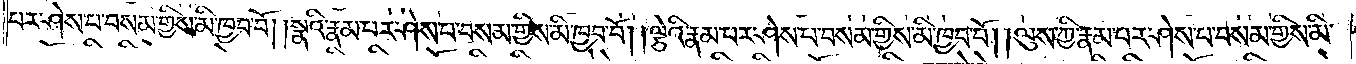པར་ཤེས་པ་བསམ་གྱིས་མི་ཁྱབ་བོ། སྣའི་རྣམ་པར་ཤེས་པ་བསམ་གྱིས་མི་ཁྱབ་བོ། །ལྕེའི་རྣམ་པར་ཤེས་པ་བསམ་གྱིས་མི་ཁྱབ་བོ། །ལུས་ཀྱི་རྣམ་པར་ཤེས་པ་བསམ་གྱིས་མི་
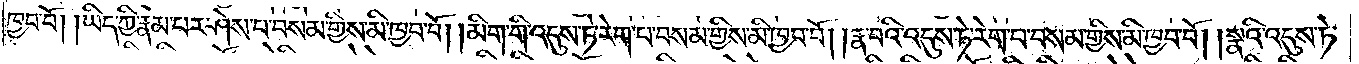ཁྱབ་བོ། །ཡིད་ཀྱི་རྣམ་པར་ཤེས་པ་བསམ་གྱིས་མི་ཁྱབ་བོ། །མིག་གི་འདུས་ཏེ་རེག་པ་བསམ་གྱིས་མི་ཁྱབ་བོ། །རྣ་བའི་འདུས་ཏེ་རེག་པ་བསམ་གྱིས་མི་ཁྱབ་བོ། །སྣའི་འདུས་ཏེ་
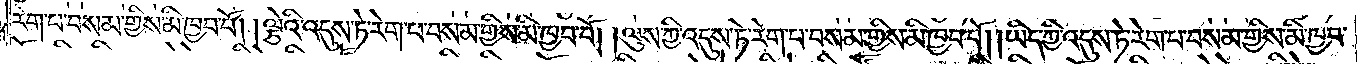རེག་པ་བསམ་གྱིས་མི་ཁྱབ་བོ། ལྕེའི་འདུས་ཏེ་རེག་པ་བསམ་གྱིས་མི་ཁྱབ་བོ། །ལུས་ཀྱི་འདུས་ཏེ་རེག་པ་བསམ་གྱིས་མི་ཁྱབ་བོ། །ཡིད་ཀྱི་འདུས་ཏེ་རེག་པ་བསམ་གྱིས་མི་ཁྱབ་
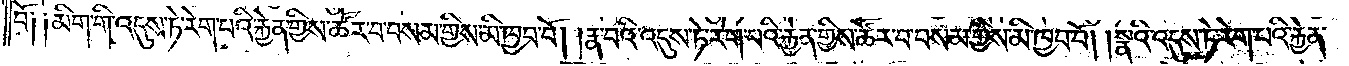བོ༑ ༑མིག་གི་འདུས་ཏེ་རེག་པའི་རྐྱེན་གྱིས་ཚོར་བ་བསམ་གྱིས་མི་ཁྱབ་བོ། །རྣ་བའི་འདུས་ཏེ་རེག་པའི་རྐྱེན་གྱིས་ཚོར་བ་བསམ་གྱིས་མི་ཁྱབ་བོ། །སྣའི་འདུས་ཏེ་རེག་པའི་རྐྱེན་
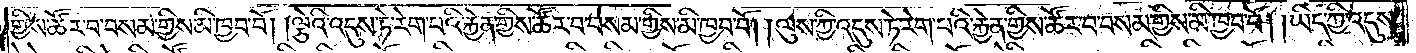གྱིས་ཚོར་བ་བསམ་གྱིས་མི་ཁྱབ་བོ། །ལྕེའི་འདུས་ཏེ་རེག་པའི་རྐྱེན་གྱིས་ཚོར་བ་བསམ་གྱིས་མི་ཁྱབ་བོ། །ལུས་ཀྱི་འདུས་ཏེ་རེག་པའི་རྐྱེན་གྱིས་ཚོར་བ་བསམ་གྱིས་མི་ཁྱབ་བོ། །ཡིད་ཀྱི་འདུས་
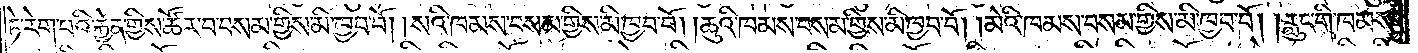ཏེ་རེག་པའི་རྐྱེན་གྱིས་ཚོར་བ་བསམ་གྱིས་མི་ཁྱབ་བོ། །སའི་ཁམས་བསམ་གྱིས་མི་ཁྱབ་བོ། །ཆུའི་ཁམས་བསམ་གྱིས་མི་ཁྱབ་བོ། །མེའི་ཁམས་བསམ་གྱིས་མི་ཁྱབ་བོ། །རླུང་གི་ཁམས་
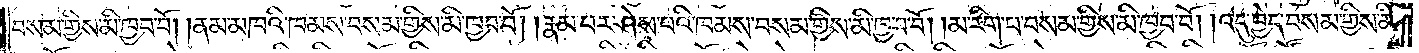བསམ་གྱིས་མི་ཁྱབ་བོ། །ནམ་མཁའི་ཁམས་བསམ་གྱིས་མི་ཁྱབ་བོ། །རྣམ་པར་ཤེས་པའི་ཁམས་བསམ་གྱིས་མི་ཁྱབ་བོ། །མ་རིག་པ་བསམ་གྱིས་མི་ཁྱབ་བོ། །འདུ་བྱེད་བསམ་གྱིས་མི་
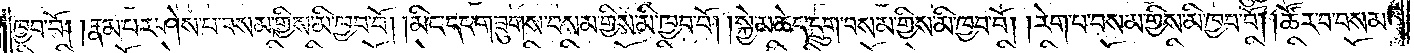ཁྱབ་བོ། །རྣམ་པར་ཤེས་པ་བསམ་གྱིས་མི་ཁྱབ་བོ། །མིང་དང་གཟུགས་བསམ་གྱིས་མི་ཁྱབ་བོ། །སྐྱེ་མཆེད་དྲུག་བསམ་གྱིས་མི་ཁྱབ་བོ། །རེག་པ་བསམ་གྱིས་མི་ཁྱབ་བོ། །ཚོར་བ་བསམ་
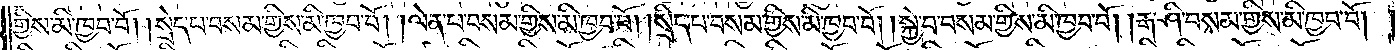གྱིས་མི་ཁྱབ་བོ། །སྲེད་པ་བསམ་གྱིས་མི་ཁྱབ་བོ། །ལེན་པ་བསམ་གྱིས་མི་ཁྱབ་བོ། །སྲིད་པ་བསམ་གྱིས་མི་ཁྱབ་བོ། །སྐྱེ་བ་བསམ་གྱིས་མི་ཁྱབ་བོ། །རྒ་ཤི་བསམ་གྱིས་མི་ཁྱབ་བོ། །
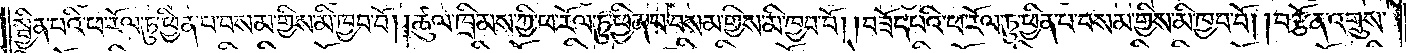སྦྱིན་པའི་ཕ་རོལ་ཏུ་ཕྱིན་པ་བསམ་གྱིས་མི་ཁྱབ་བོ། །ཚུལ་ཁྲིམས་ཀྱི་ཕ་རོལ་ཏུ་ཕྱིན་པ་བསམ་གྱིས་མི་ཁྱབ་བོ། །བཟོད་པའི་ཕ་རོལ་ཏུ་ཕྱིན་པ་བསམ་གྱིས་མི་ཁྱབ་བོ། །བརྩོན་འགྲུས་
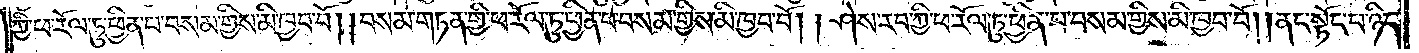ཀྱི་ཕ་རོལ་ཏུ་ཕྱིན་པ་བསམ་གྱིས་མི་ཁྱབ་བོ། །བསམ་གཏན་གྱི་ཕ་རོལ་ཏུ་ཕྱིན་པ་བསམ་གྱིས་མི་ཁྱབ་བོ། །ཤེས་རབ་ཀྱི་ཕ་རོལ་ཏུ་ཕྱིན་པ་བསམ་གྱིས་མི་ཁྱབ་བོ། །ནང་སྟོང་པ་ཉིད་
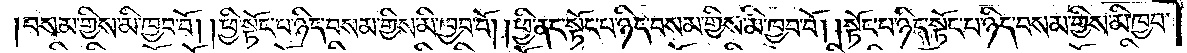བསམ་གྱིས་མི་ཁྱབ་བོ། །ཕྱི་སྟོང་པ་ཉིད་བསམ་གྱིས་མི་ཁྱབ་བོ། །ཕྱི་ནང་སྟོང་པ་ཉིད་བསམ་གྱིས་མི་ཁྱབ་བོ། །སྟོང་པ་ཉིད་སྟོང་པ་ཉིད་བསམ་གྱིས་མི་ཁྱབ་
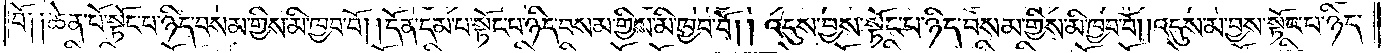བོ༑ ༑ཆེན་པོ་སྟོང་པ་ཉིད་བསམ་གྱིས་མི་ཁྱབ་བོ། །དོན་དམ་པ་སྟོང་པ་ཉིད་བསམ་གྱིས་མི་ཁྱབ་བོ། །འདུས་བྱས་སྟོང་པ་ཉིད་བསམ་གྱིས་མི་ཁྱབ་བོ། །འདུས་མ་བྱས་སྟོང་པ་ཉིད་
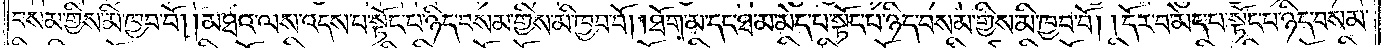བསམ་གྱིས་མི་ཁྱབ་བོ། །མཐའ་ལས་འདས་པ་སྟོང་པ་ཉིད་བསམ་གྱིས་མི་ཁྱབ་བོ། །ཐོག་མ་དང་ཐ་མ་མེད་པ་སྟོང་པ་ཉིད་བསམ་གྱིས་མི་ཁྱབ་བོ། །དོར་བ་མེད་པ་སྟོང་པ་ཉིད་བསམ་
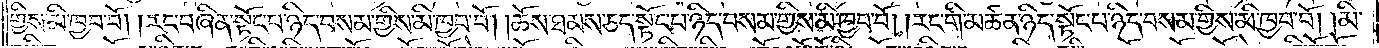གྱིས་མི་ཁྱབ་བོ། །རང་བཞིན་སྟོང་པ་ཉིད་བསམ་གྱིས་མི་ཁྱབ་བོ། །ཆོས་ཐམས་ཅད་སྟོང་པ་ཉིད་བསམ་གྱིས་མི་ཁྱབ་བོ། །རང་གི་མཚན་ཉིད་སྟོང་པ་ཉིད་བསམ་གྱིས་མི་ཁྱབ་བོ། །མི་
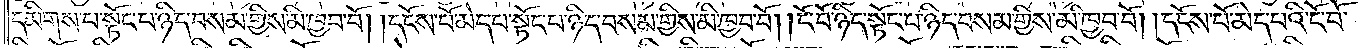དམིགས་པ་སྟོང་པ་ཉིད་བསམ་གྱིས་མི་ཁྱབ་བོ། །དངོས་པོ་མེད་པ་སྟོང་པ་ཉིད་བསམ་གྱིས་མི་ཁྱབ་བོ། །ངོ་བོ་ཉིད་སྟོང་པ་ཉིད་བསམ་གྱིས་མི་ཁྱབ་བོ། །དངོས་པོ་མེད་པའི་ངོ་བོ་
